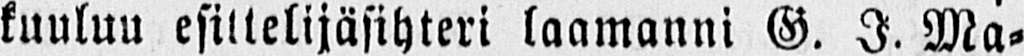kuuluu esittelijäsihteri laamanni G. I. Ma-
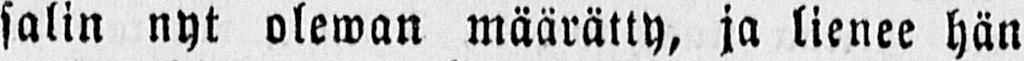salin nyt olewan määrätty, ja lienee hän
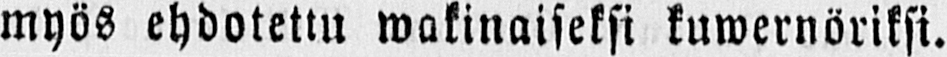myös ehdotettu wakinaiseksi kuwernöriksi.
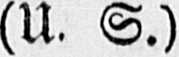(U. S.)
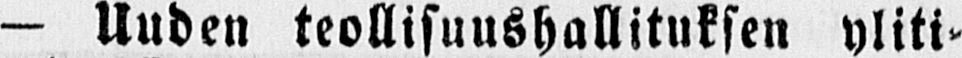— Uuden teollisuushallituksen yliti-
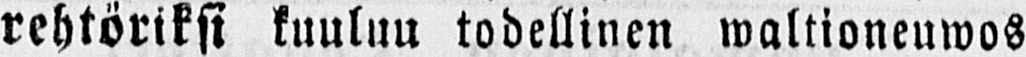rehtöriksi kuuluu todellinen waltioneuwos
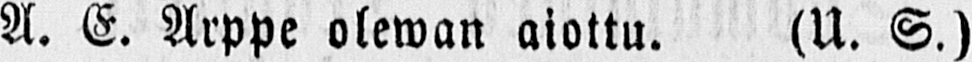A. E. Arppe olewan aiottu. (U. S.)
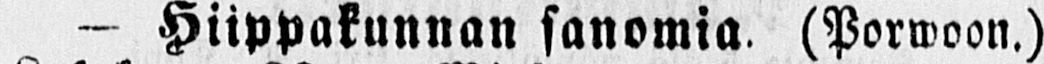— Hiippakunnan sanomia (Porwoon.)
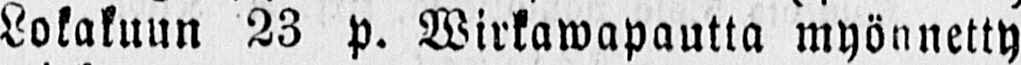Lokakuun 23 p. Wirkawapautta myönnetty
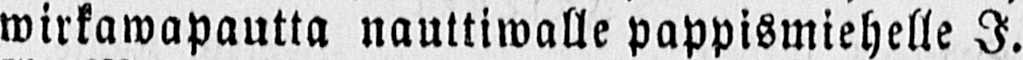wirkawapautta nauttiwalle pappismiehelle I.
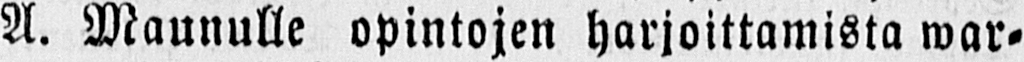A. Maunulle opintojen harjoittamista war-
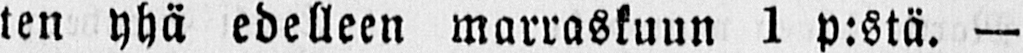ten yhä edelleen marraskuun 1 p:stä. —
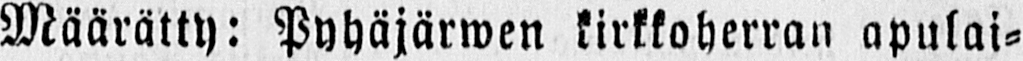Määrätty: Pyhäjärwen kirkkoherran apulai-
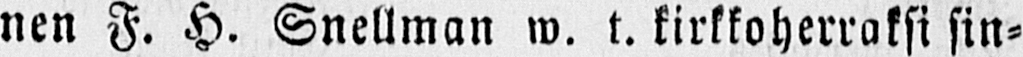nen F. H. Snellman w. t. kirkkoherraksi sin-
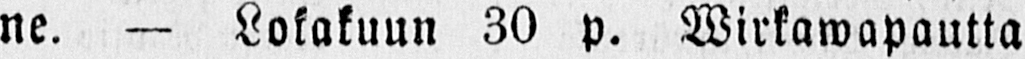ne. — Lokakuun 30 p. Wirkawapautta
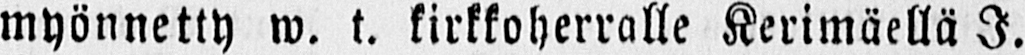myönnetty w. t. kirkkoherralle Kerimäellä I.
